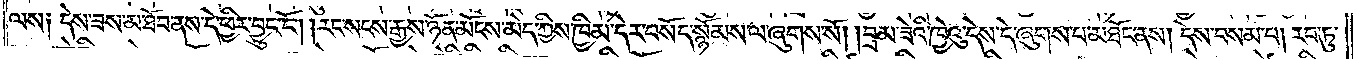ལས༑ དེས་ཟས་མ་ཐོབ་ནས་དེ་ཕྱིར་བྱུང་ངོ༌། །རང་སངས་རྒྱས་ཉོན་མོངས་མེད་ཀྱིས་ཁྱིམ་དེར་བསོད་སྙོམས་ལ་ཞུགས་སོ། །བྲམ་ཟེའི་ཁྱེའུ་དེས་དེ་ཞུགས་པ་མཐོང་ནས། དེས་བསམ་པ། རབ་ཏུ་
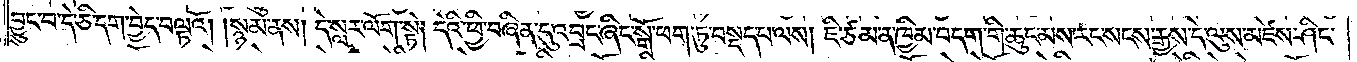བྱུང་བ་དེ་ཅི་དག་བྱེད་བལྟའོ། །སྙམ་ནས། དེ་སླར་ལོག་སྟེ། དེའི་ཕྱི་བཞིན་དུ་འབྲང་ཞིང་སྒོ་ཕག་ཏུ་བསྡད་པ་ལས། ཇི་ཙམ་ན་ཁྱིམ་བདག་གི་ཆུང་མས་རང་སངས་རྒྱས་དེ་ལུས་མཛེས་ཤིང་
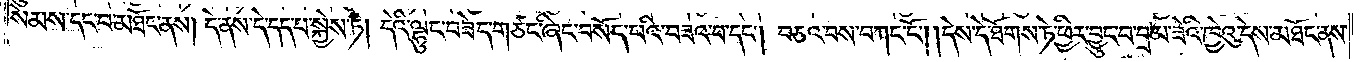སེམས་དང་བ་མཐོང་ནས། དེ་ནས་དེ་དད་པ་སྐྱེས་ཏེ། དེའི་ལྷུང་བཟེད་གཙང་ཞིང་བསོད་པའི་བཟའ་བ་དང༌། བཅའ་བས་བཀང་ངོ༌། །དེས་དེ་ཐོགས་ཏེ་ཕྱིར་བྱུང་བ་བྲམ་ཟེའི་ཁྱེའུ་དེས་མཐོང་ནས་
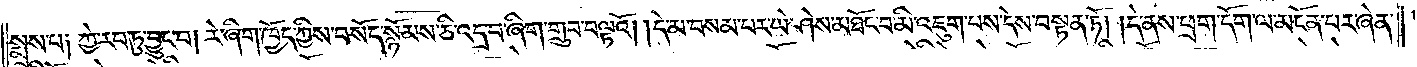སྨྲས་པ༑ ཀྱེ་རབ་ཏུ་བྱུང་བ། རེ་ཞིག་ཁྱོད་ཀྱིས་བསོད་སྙོམས་ཅི་འདྲ་བ་ཞིག་གྲུབ་བལྟའོ། །དེ་མ་བསམ་པར་ཡེ་ཤེས་མཐོང་བ་མི་འཇུག་པས་དེས་བསྟན་ཏོ། །དེ་ནས་ཕྲག་དོག་ལ་མངོན་པར་ཞེ་ན་
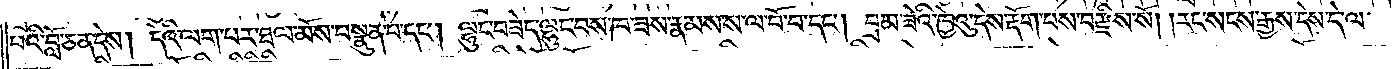པའི་བློ་ཅན་དེས། དེའི་ལག་པར་ཐལ་མོས་བསྣུན་པ་དང༌། ལྷུང་བཟེད་ལྷུང་བས་ཁ་ཟས་རྣམས་ས་ལ་བོ་བ་དང༌། བྲམ་ཟེའི་ཁྱེའུ་དེས་རྡོག་པས་བརྫིས་སོ། །རང་སངས་རྒྱས་དེས་དེ་ལ་
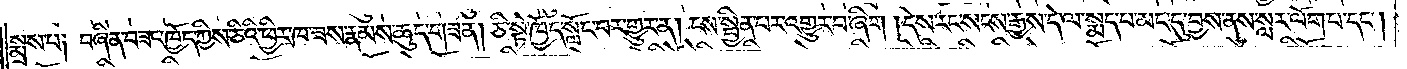སྨྲས་པ༑ བཞིན་བཟང་ཁྱོད་ཀྱིས་ཅིའི་ཕྱིར་ཁ་ཟས་རྣམས་ཆུད་གཟན། ཅི་སྟེ་ཁྱོད་སློང་བར་གྱུར་ན། ངས་སྦྱིན་པར་འགྱུར་བ་ཞིག །དེས་རང་སངས་རྒྱས་དེ་ལ་སྨད་པ་མང་དུ་བྱས་ནས་སླར་ལོག་པ་དང༌།
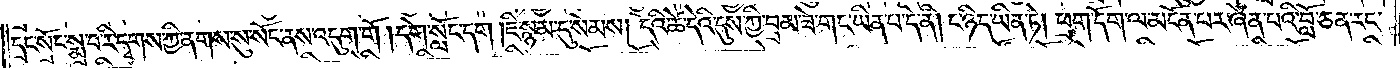དྲང་སྲོང་སྨྲ་བ་རི་དྭགས་ཀྱི་ནགས་སུ་སོང་ནས་འདུག་གོ །དགེ་སློང་དག །ཇི་སྙམ་དུ་སེམས། དེའི་ཚེ་དེའི་དུས་ཀྱི་བྲམ་ཟེ་གང་ཡིན་པ་དེ་ནི། ང་ཉིད་ཡིན་ཏེ། ཕྲག་དོག་ལ་མངོན་པར་ཞེན་པའི་བློ་ཅན་རང་
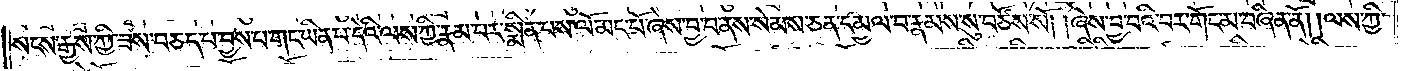སངས་རྒྱས་ཀྱི་ཟས་བཅད་པ་བྱས་པ་གང་ཡིན་པ་དེའི་ལས་ཀྱི་རྣམ་པར་སྨིན་པས་ལོ་མང་པོ་ཞེས་བྱ་བ་ནས་སེམས་ཅན་དམྱལ་བ་རྣམས་སུ་བཙོས་སོ། །ཞེས་བྱ་བའི་བར་གོང་མ་བཞིན་ནོ། །ལས་ཀྱི་
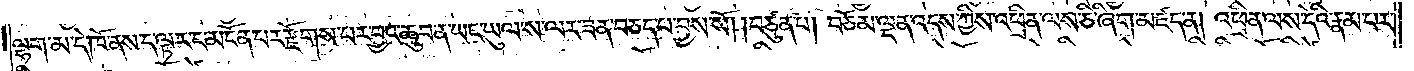ལྷག་མ་དེ་ཁོ་ནས་ད་ལྟར་ང་མངོན་པར་རྫོགས་པར་བྱང་ཆུབ་ན་ཡང་ཡུལ་ས་ལར་ཟན་བཅད་པ་བྱས་སོ། །བཙུན་པ། བཅོམ་ལྡན་འདས་ཀྱིས་འཕྲིན་ལས་ཅི་ཞིག་མཛད་ན། འཕྲིན་ལས་དེའི་རྣམ་པར་
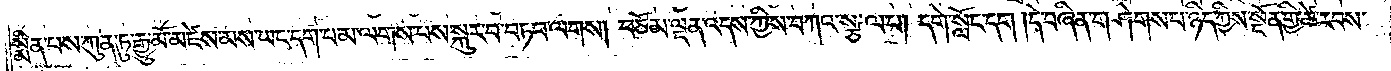སྨིན་པས་ཀུན་ཏུ་རྒྱུ་མོ་མཛེས་མས་ཡང་དག་པ་མ་ལགས་པས་སྐུར་བ་བཏབ་ལགས། བཅོམ་ལྡན་འདས་ཀྱིས་བཀའ་སྩལ་པ། དགེ་སློང་དག །དེ་བཞིན་གཤེགས་པ་ཉིད་ཀྱིས་སྔོན་གྱི་ཚེ་རབས་
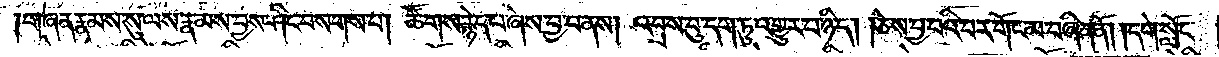གཞན་རྣམས་སུ་ལས་རྣམས་བྱས་ཤིང་བསགས་པ། ཚོགས་རྙེད་པ་ཞེས་བྱ་བ་ནས། འབྲས་བུ་དག་ཏུ་འགྱུར་བ་ཉིད། །ཅེས་བྱ་བའི་བར་གོང་མ་བཞིན་ནོ། །དགེ་སློང་
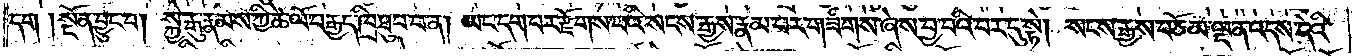དག །སྔོན་བྱུང་བ། སྐྱེ་རྒུ་རྣམས་ཀྱི་ཚེ་ལོ་བརྒྱད་ཁྲི་ཐུབ་པ་ན། ཡང་དག་པར་རྫོགས་པའི་སངས་རྒྱས་རྣམ་པར་གཟིགས་ཞེས་བྱ་བའི་བར་དུ་སྟེ། སངས་རྒྱས་བཅོམ་ལྡན་འདས་དེའི་
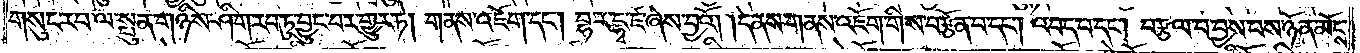གསུང་རབ་ལ་སྤུན་གཉིས་ཤིག་རབ་ཏུ་བྱུང་བར་གྱུར་ཏེ། གནས་འཇོག་དང༌། བྷ་ར་དྷྭ་ཛ་ཞེས་བྱའོ། །དེ་ནས་གནས་འཇོག་གིས་བརྩོན་པ་དང༌། འབད་པ་དང༌། བརྩལ་བ་བྱས་པས་ཉོན་མོངས་
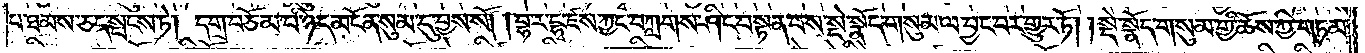པ་ཐམས་ཅད་སྤངས་ཏེ། དགྲ་བཅོམ་པ་ཉིད་མངོན་སུམ་དུ་བྱས་སོ། །བྷ་ར་དྷྭ་ཛས་ཀྱང་བཀླགས་ཤིང་བསྟན་པས་སྡེ་སྣོད་གསུམ་ལ་བྱང་བར་གྱུར་ཏོ། །སྡེ་སྣོད་གསུམ་གྱི་ཆོས་ཀྱི་གཏམ་
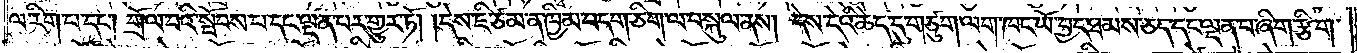ལ་རིག་པ་དང༌། གྲོལ་བའི་སྤོབས་པ་དང་ལྡན་པར་གྱུར་ཏོ། །དེས་ཇི་ཙམ་ན་ཁྱིམ་བདག་ཅིག་ལ་བསྐུལ་ནས། དེས་དེའི་ཆེད་དུ་གཙུག་ལག་ཁང་ཡོ་བྱད་ཐམས་ཅད་དང་ལྡན་པ་ཞིག་རྩིག་
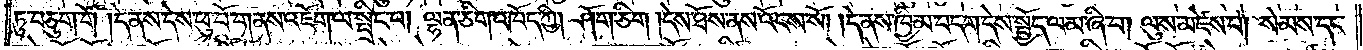ཏུ་བཅུག་གོ །དེ་ནས་དེས་ཕུ་པོ་གནས་འཇོག་ལ་སྤྲིང་བ། ལྷན་ཅིག་འཁོད་ཀྱི། ཤོག་ཅིག །དེས་ཐོས་ནས་འོངས་སོ། །དེ་ནས་ཁྱིམ་བདག་དེས་སྤྱོད་ལམ་ཞི་བ། ལུས་མཛེས་པ། སེམས་དང་
